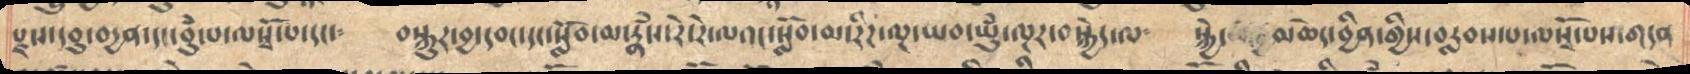སྫས་དབུ་བདྱན་དང་བུཾ་པ་ལསྭོ་པ་དང་༴  བསྐུར་བྱ་དབང་དང་སློབ་མ་རྣཾས་རེ་རེ་ལའང་སློབ་མ་རིཌ་ལྔ་ཡབ་ཡུཾ་ལྔར་བསྐྱེད་ལ༴  སྐྱེ་མཆེད་བྱིན་གྱིས་བརླབས་པ་ལསྭོ་པས་གདན
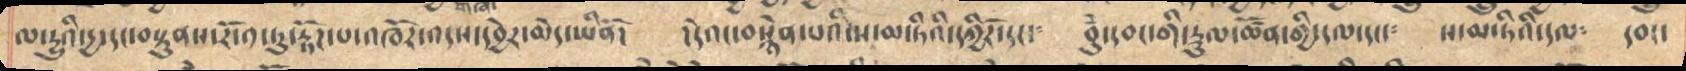ལ་རྱུའི་དྱ་དང་བསྟུནས་རོ་༡་ཏུ་རྟོཌ་པ་འཁོར་འདས་དབྱེར་མེད་ཡིནོ།  །དེའང་བསྟན་པའི་ས་མ་ཏིའི་དཀྱིརོ་དང།  བུཾ་དབང་གི་རྡུལ་ཚོན་གྱི་དལ་དང༴  ས་མ་ཏིའི་དལ༴  དབང་
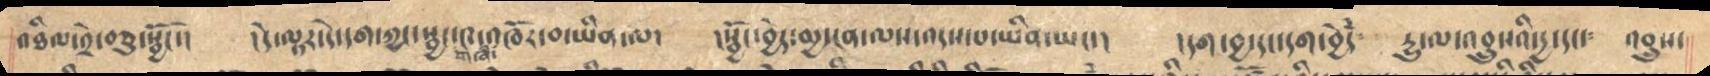འཐིལ་༢་བཅུ་སྦྱོང་།  ། དེ་ལྟར་དེ་དག་ཀྱང་སྦྱང་༤་འཁོར་བ་ཡིན་ལ།  ། སྦྱོང་བྱེད་མྱ་ངན་ལས་པ་ཡིན་ཡང་།   །དག་བྱ་དང་དགབྱེཾ༴  དྱུ་ལ་འབྲུཔའི་དྱ་དང༴  འབྲུས་
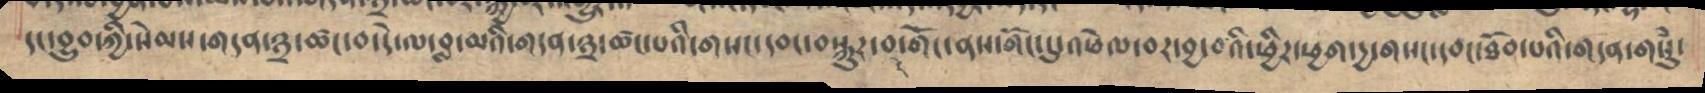དང་བྱུབ་ཀྱི་སེམས་གདན་༣་ཚང་བ་དེ་ལ་བླ་མའི་གདན་༣་ཚང་པའི་གསང་དབང་བསྐུར་བ་གོང་ནས་གོང་དུ་འཕེལ་བར་བྱ་བའི་ཕྱིར་ཕྱག་དྱ་གསང་་དབང་ཐོབ་པའི་གདན་གསུཾ་
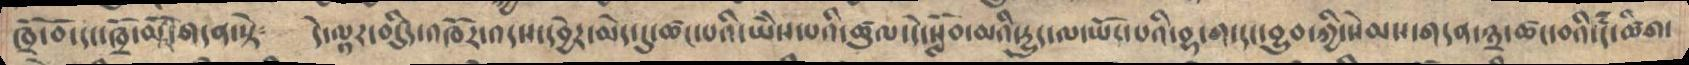ཁྲོ་བོ་དང་ཁྲོ་མོའི་གདན་སྟེ༴   དེ་ལྟར་བདིུད་འཁོར་འདས་དབྱེར་མེད་དུ་ཚང་པའི་ཡེེས་པའི་ཚུལ་དེ་སློབ་མའི་དྱུད་ལ་སྤོང་པའི་བྷ་ག་དང་བྱུབ་ཀྱི་སེམས་གདན་༣་ཚང་བའི་དཾ་ཚིག་
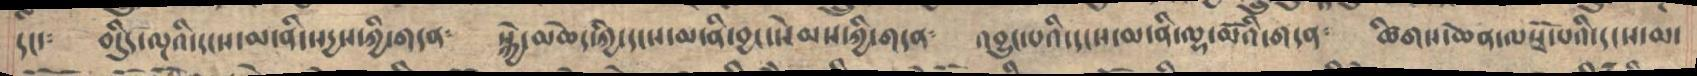དང༴  བདིུད་ལྔའི་དང་ས་མ་ནི་སདྱས་ཀྱི་གདན༴  སྐྱེ་མཆེད་ཀྱི་དངས་མ་ནི་བྱང་སེམས་ཀྱི་གདན༴ འབྱུང་པའི་དངས་མ་ནི་ལྷ་མོའི་གདན༴  ཚིགས་ཆེན་ལསྭོ་པའི་དངས་མ་
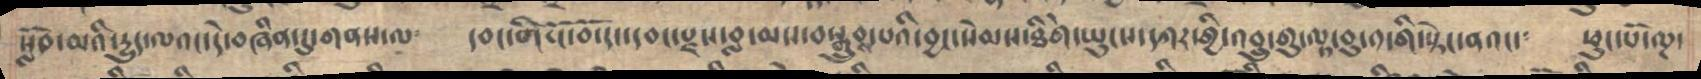སློབ་མའི་དྱུད་ལའང་དེ་བཞིན་དུ་གནས་ལ༴  དབང་གི་ངོ་བོ་དང་དབང་སྫས་བླ་མས་བསྒྲུབས་པའི་བྱང་ཆུབ་སེམས་ཐིེག་ཡུངས་དཀར་གྱི་འབྲུ་གུ་ལ་བུ་༡་གི་སྟེང་ནའང་༴  ཕུང་པོ་ལྔ་
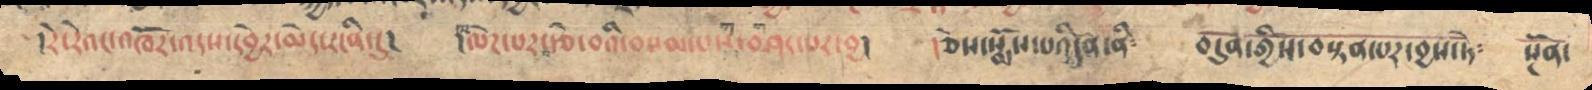།རེ་རེའང་འཁོར་འདས་དབྱེར་མེད་རངནི་དུ།  ། ལེཌ་པར་རྩེ་བའི་བསམ་པས་བཤད་པར་བྱ།  །ཅེས་སྨོས་པའི་དོན་ནི༴  བདུན་གྱིས་བསྟན་པར་བྱས་ཏེེ༴   སྔོན་
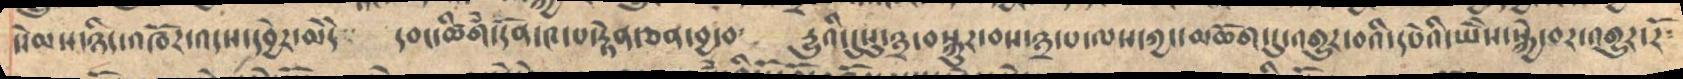སེམས་ཉིད་འཁོར་འདས་དབྱེར་མེདེ༴  དབང་ཚིགཾ་དོན་༩་པ་རྟེན་ཅན་བྱ་བ༴  རྱུའི་དུསུ་༣་བསྐུར་བས་༣་པ་ལས་ཀྱང་མཆོག་དུ་འགྱུར་བའི་དཔེའི་ཡེེས་སྐྱེ་བར་འགྱུར་རོ༴
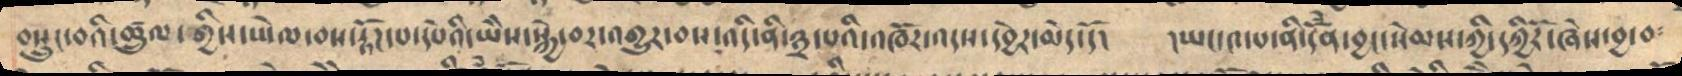བསྲུང་བའི་ཚྲུལ་གྱིས་ཡེལ་བས་རྟོཌ་པ་དཔེའི་ཡེེས་སྐྱེ་བར་འགྱུར་བས་འདི་ནི་༣་པའིའཁོར་འདས་དབྱེར་མེད་དོ།  །ཡང་༩་པ་ནི་དོན་བྱང་སེམས་ཀྱི་དཀྱིོར་ཞེས་བྱ་བ༴
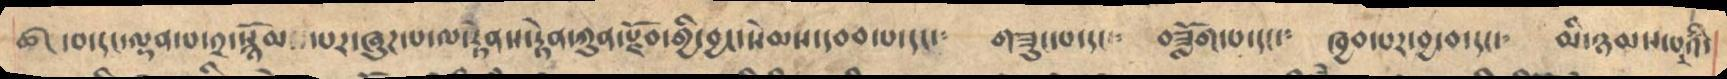ཚང་བ་དང་ལྡན་པ་༢་སྙོམས་པར་ཞུཌ་པ་ལ་རྟེནས་རྟེན་ཀུན་རྫོབ་གྱི་བྱང་སེམས་དབབ་པ་དང་༴     གཟུང་པ་དང་༴  བཟློག་པ་དང་༴  ཁྱབ་པར་བྱ་བ་དང་༴  མི་ཉམས་པའི་
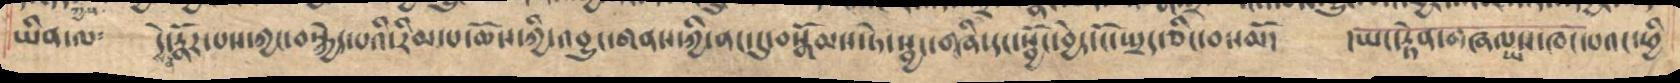ཡིན་ལ༴   དེས་ན་རྣོར་པས་ཀྱང་བསྐྱེད་པའི་རིམ་པ་ཆོས་ཀྱི་འབྱུང་གནས་ཀྱི་ནང་དུ་བསྒོམས་ཏེ་སྦྱང་གཞི་དང་སྦྱོང་བྱེད་ངོ་སྤྲད་ཅིང་བསམོ།  །ཡང་རྟེན་གཞལ་ཡས་ཁང་བའང་ཕྱི
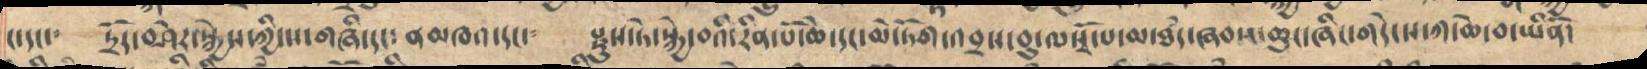ང་དང་༴ དྲོད་བཤེར་སྐྱེས་ཀྱི་ས་གཞི་དང་ནམཁའ་དང་༴ སྫུས་ཏེ་སྐྱེ་བའི་རིན་པོ་ཆེ་དང་མེ་ཏོག་འབྲས་བུ་ལསྭོ་པ་མ་ཐཾད་ཞབས་ཆུང་ཞིང་གདེངས་ཀ་ཆེ་བ་ཡིནོ།
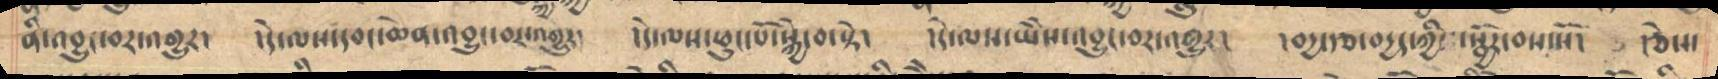ནི་འབྱུང་བར་འགྱུར། །དེ་ལས་དབང་ཆེན་འབྱུང་བར་འགྱུར། །དེ་ལས་ཕུང་པོ་སྐྱེ་བ་སྟེ། །དེ་ལས་ཡཻས་འབྱུང་བར་འགྱུར། །བདྱ་རྩ་བདྱད་ཀྱིས་སྦོར་བས་སོ། །ཅེས་
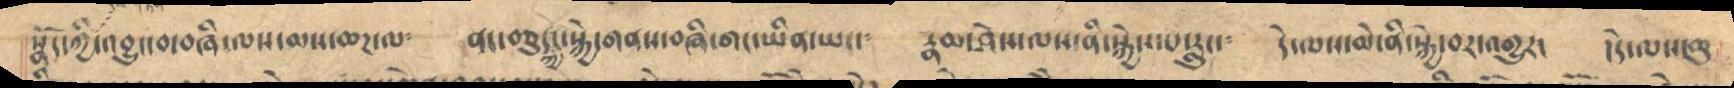སྣོད་ཀྱི་འབྱུང་བ་བཞི་ལས་མས་ཆཌ་ལ༴ ནང་བཅུད་སྐྱེ་གནས་བཞི་གང་ཡིན་ཡང་༴ རྣམ་ཤེས་ལས་ནི་སྐྱེས་པ་རླུང་༴ དེ་ལས་མེ་ནི་སྐྱེ་བར་འགྱུར། །དེ་ལས་ཆུ
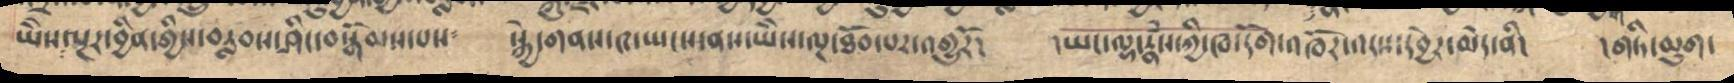ཡཻས་ལྔར་བྱིན་གྱིས་བརླབས་ཤིང་བསྒོམས་པས༴ སྐྱེ་གནས་༩་སྤངས་ནས་ཡཻས་ལྔ་ཐོབ་པར་འགྱུརོ། །ཡང་ལྷ་རྣཾས་ཀྱི་ཁ་དོག་འཁོར་འདས་དབྱེར་མེད་ནི། །གཏི་མུག་
